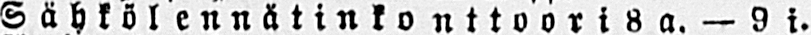Sähkölennätinkonttoori 8a. — 9i.
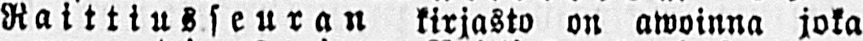Raittiusseuran kirjasto on awoinna joka
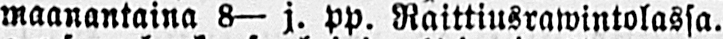maanantaina 8— j. pp. Raittiusrawintolassa.
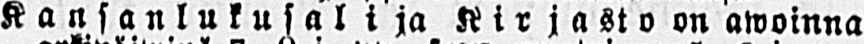Kansanlukusali ja Kirjasto on awoinna
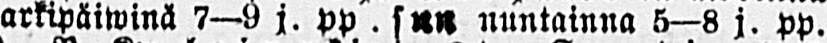arkipäiwinä 7—9 j. pp . nuntainna 5—8 j. pp.
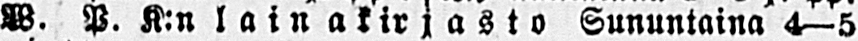W. P. K:n lainakirjasto Sununtaina 4—5
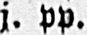i- PP-
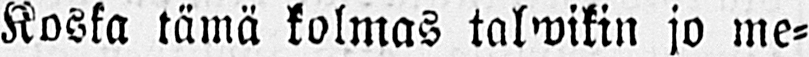Koska tämä kolmas talwikin jo me-
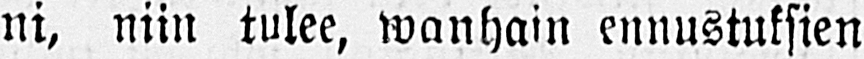ni niin tulee, wan hain ennustuksien
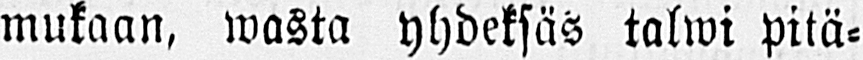mukaan, wasta yhdeksäs talwi pitä-
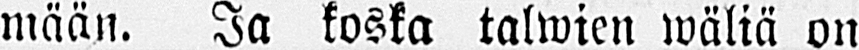mään. Ja koska talwien wäliä on
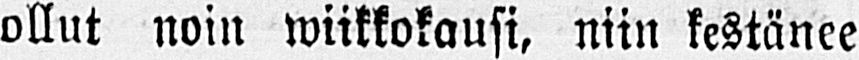ollut noin wiikkokausi, niin kestänee
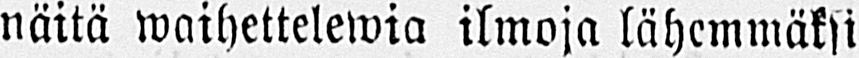näitä waihettelewia ilmoja lähemmäksi
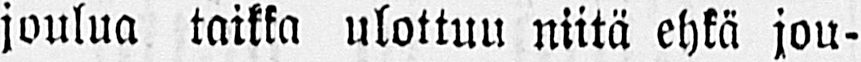joulua taikka ulottuu niitä ehkä jou-
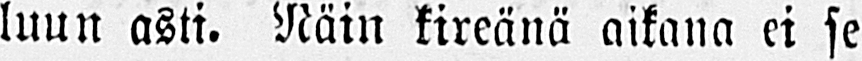luun asti. Näin kireänä aikana ei se
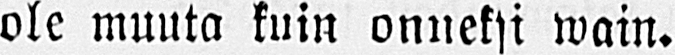ole muuta kuin onneksi wain.
